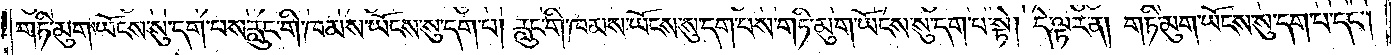གཏི་མུག་ཡོངས་སུ་དག་པས་རླུང་གི་ཁམས་ཡོངས་སུ་དག་པ། རླུང་གི་ཁམས་ཡོངས་སུ་དག་པས་གཏི་མུག་ཡོངས་སུ་དག་པ་སྟེ། དེ་ལྟར་ན། གཏི་མུག་ཡོངས་སུ་དག་པ་དང༌།
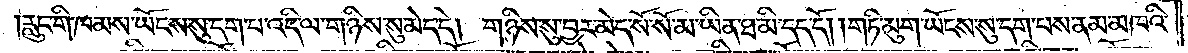རླུང་གི་ཁམས་ཡོངས་སུ་དག་པ་འདི་ལ་གཉིས་སུ་མེད་དེ། གཉིས་སུ་བྱར་མེད་སོ་སོ་མ་ཡིན་ཐ་མི་དད་དོ། །གཏི་མུག་ཡོངས་སུ་དག་པས་ནམ་མཁའི་
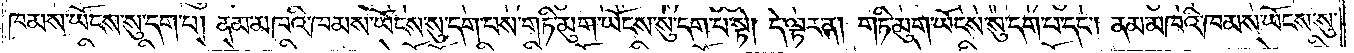ཁམས་ཡོངས་སུ་དག་པ། ནམ་མཁའི་ཁམས་ཡོངས་སུ་དག་པས་གཏི་མུག་ཡོངས་སུ་དག་པ་སྟེ། དེ་ལྟར་ན། གཏི་མུག་ཡོངས་སུ་དག་པ་དང༌། ནམ་མཁའི་ཁམས་ཡོངས་སུ་
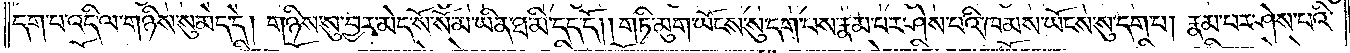དག་པ་འདི་ལ་གཉིས་སུ་མེད་དེ། གཉིས་སུ་བྱར་མེད་སོ་སོ་མ་ཡིན་ཐ་མི་དད་དོ། །གཏི་མུག་ཡོངས་སུ་དག་པས་རྣམ་པར་ཤེས་པའི་ཁམས་ཡོངས་སུ་དག་པ། རྣམ་པར་ཤེས་པའི་
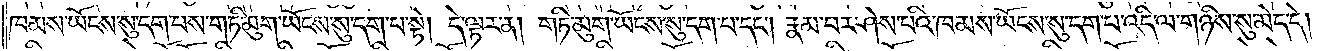ཁམས་ཡོངས་སུ་དག་པས་གཏི་མུག་ཡོངས་སུ་དག་པ་སྟེ། དེ་ལྟར་ན། གཏི་མུག་ཡོངས་སུ་དག་པ་དང༌། རྣམ་པར་ཤེས་པའི་ཁམས་ཡོངས་སུ་དག་པ་འདི་ལ་གཉིས་སུ་མེད་དེ།
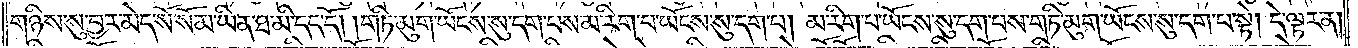གཉིས་སུ་བྱར་མེད་སོ་སོ་མ་ཡིན་ཐ་མི་དད་དོ། །གཏི་མུག་ཡོངས་སུ་དག་པས་མ་རིག་པ་ཡོངས་སུ་དག་པ། མ་རིག་པ་ཡོངས་སུ་དག་པས་གཏི་མུག་ཡོངས་སུ་དག་པ་སྟེ། དེ་ལྟར་ན།
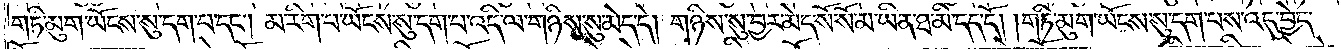གཏི་མུག་ཡོངས་སུ་དག་པ་དང༌། མ་རིག་པ་ཡོངས་སུ་དག་པ་འདི་ལ་གཉིས་སུ་མེད་དེ། གཉིས་སུ་བྱར་མེད་སོ་སོ་མ་ཡིན་ཐ་མི་དད་དོ། །གཏི་མུག་ཡོངས་སུ་དག་པས་འདུ་བྱེད་
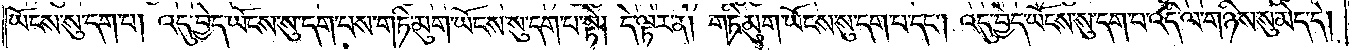ཡོངས་སུ་དག་པ། འདུ་བྱེད་ཡོངས་སུ་དག་པས་གཏི་མུག་ཡོངས་སུ་དག་པ་སྟེ། དེ་ལྟར་ན། གཏི་མུག་ཡོངས་སུ་དག་པ་དང༌། འདུ་བྱེད་ཡོངས་སུ་དག་པ་འདི་ལ་གཉིས་སུ་མེད་དེ།
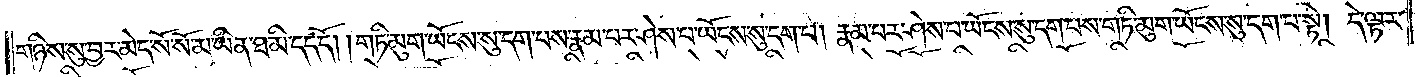གཉིས་སུ་བྱར་མེད་སོ་སོ་མ་ཡིན་ཐ་མི་དད་དོ། །གཏི་མུག་ཡོངས་སུ་དག་པས་རྣམ་པར་ཤེས་པ་ཡོངས་སུ་དག་པ། རྣམ་པར་ཤེས་པ་ཡོངས་སུ་དག་པས་གཏི་མུག་ཡོངས་སུ་དག་པ་སྟེ། དེ་ལྟར་
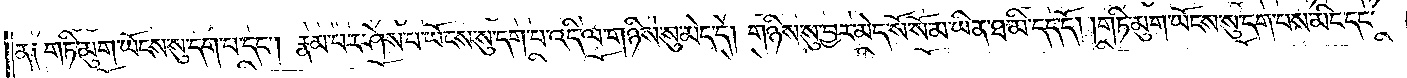ན། གཏི་མུག་ཡོངས་སུ་དག་པ་དང༌། རྣམ་པར་ཤེས་པ་ཡོངས་སུ་དག་པ་འདི་ལ་གཉིས་སུ་མེད་དེ། གཉིས་སུ་བྱར་མེད་སོ་སོ་མ་ཡིན་ཐ་མི་དད་དོ། །གཏི་མུག་ཡོངས་སུ་དག་པས་མིང་དང་
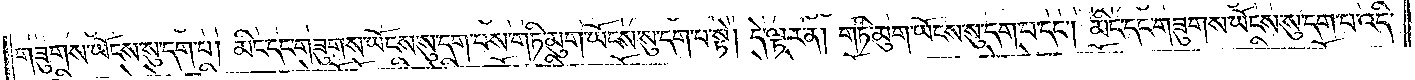གཟུགས་ཡོངས་སུ་དག་པ། མིང་དང་གཟུགས་ཡོངས་སུ་དག་པས་གཏི་མུག་ཡོངས་སུ་དག་པ་སྟེ། དེ་ལྟར་ན། གཏི་མུག་ཡོངས་སུ་དག་པ་དང༌། མིང་དང་གཟུགས་ཡོངས་སུ་དག་པ་འདི་
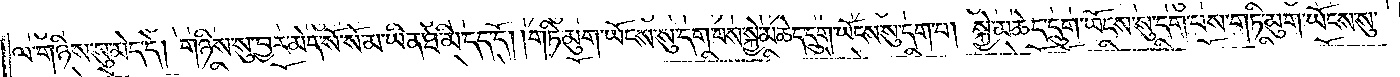ལ་གཉིས་སུ་མེད་དེ། གཉིས་སུ་བྱར་མེད་སོ་སོ་མ་ཡིན་ཐ་མི་དད་དོ། །གཏི་མུག་ཡོངས་སུ་དག་པས་སྐྱེ་མཆེད་དྲུག་ཡོངས་སུ་དག་པ། སྐྱེ་མཆེད་དྲུག་ཡོངས་སུ་དག་པས་གཏི་མུག་ཡོངས་སུ་
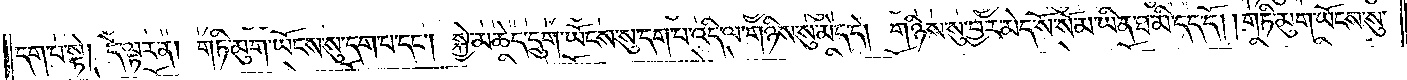དག་པ་སྟེ། དེ་ལྟར་ན། གཏི་མུག་ཡོངས་སུ་དག་པ་དང༌། སྐྱེ་མཆེད་དྲུག་ཡོངས་སུ་དག་པ་འདི་ལ་གཉིས་སུ་མེད་དེ། གཉིས་སུ་བྱར་མེད་སོ་སོ་མ་ཡིན་ཐ་མི་དད་དོ༑ །གཏི་མུག་ཡོངས་སུ་
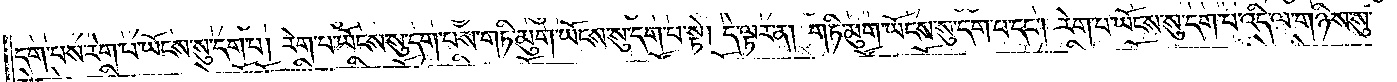དག་པས་རེག་པ་ཡོངས་སུ་དག་པ། རེག་པ་ཡོངས་སུ་དག་པས་གཏི་མུག་ཡོངས་སུ་དག་པ་སྟེ། དེ་ལྟར་ན། གཏི་མུག་ཡོངས་སུ་དག་པ་དང༌། རེག་པ་ཡོངས་སུ་དག་པ་འདི་ལ་གཉིས་སུ་
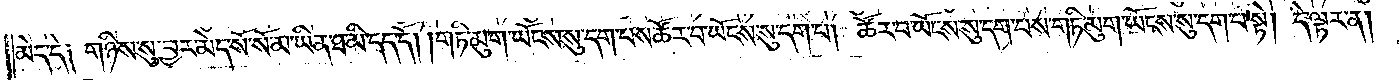མེད་དེ། གཉིས་སུ་བྱར་མེད་སོ་སོ་མ་ཡིན་ཐ་མི་དད་དོ། །གཏི་མུག་ཡོངས་སུ་དག་པས་ཚོར་བ་ཡོངས་སུ་དག་པ། ཚོར་བ་ཡོངས་སུ་དག་པས་གཏི་མུག་ཡོངས་སུ་དག་པ་སྟེ། དེ་ལྟར་ན།
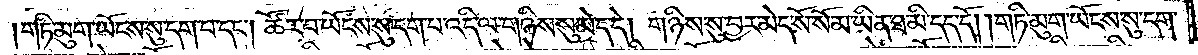གཏི་མུག་ཡོངས་སུ་དག་པ་དང༌། ཚོར་བ་ཡོངས་སུ་དག་པ་འདི་ལ་གཉིས་སུ་མེད་དེ། གཉིས་སུ་བྱར་མེད་སོ་སོ་མ་ཡིན་ཐ་མི་དད་དོ། །གཏི་མུག་ཡོངས་སུ་དག་
